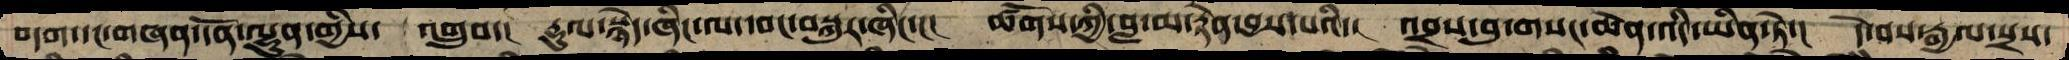བདག་དང་གཞན་དོན་ལྷུན་གྱིས་  འགྲུབ་།  རྡུལ་སྙེད་ཞིང་ལ་དབང་བསྐུར་ཞིང་།།།  ཚོགས་ཀྱི་བླ་མ་རྟེན་བྱས་པའི་།  འབྲས་བུ་གསང་ཆེན་འདི་ཡིན་ཏེ་།  དེ་བས་རྒྱལ་སྲས་
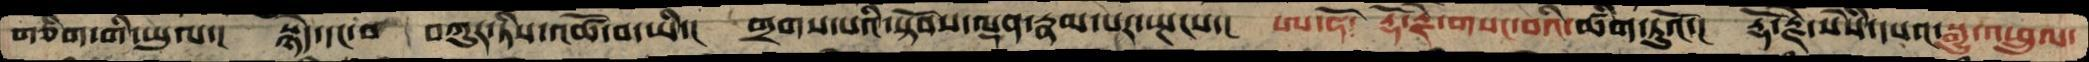གཅིག་གི་ཡུལ་། སྙེད་དང་ བཀུར་ཏིས་འཚོ་བ་ཡི་། གྲགས་པའི་སྟོབས་ལྡན་རྣམ་པར་སྤངས་། ཨ་ཧོ་  རྡོ་རྗེ་གསང་བའི་ཚིག་ཏུའོ་། རྡོ་རྗེ་སེཾས་དཔའ་སྒྱུ་འཕྲུལ་
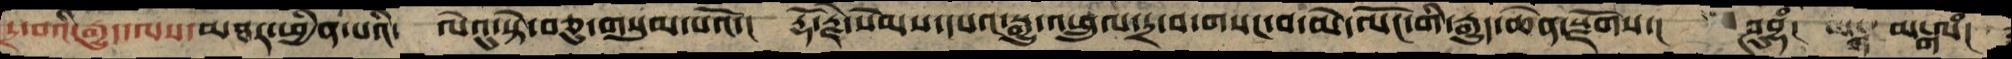དྲ་བའི་རྒྱུད་ལས་མཐར་ཕྱིན་པའི་ ལེའུ་སྟེ་བཅུ་གསུམ་པའོ་། རྡོ་རྗེ་སེམས་དཔའ་སྒྱུ་འཕྲུལ་དྲ་བ་གསང་བ་མེ་ལོང་གི་རྒྱུད་ཆེན་སྫོགས་། ཤུབྷཾ། མངྒལཾ།
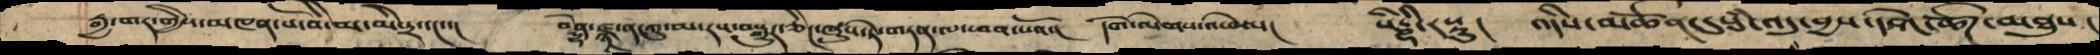རྒྱ་གར་གྱི་མཁན་པོ་བི་མ་མི་ཏྲ་དང་་། བནྡྷེ་ཛྙ་ན་ཀུ་མ་རས་བསྒྱུར་ཅིང་ཞུས་ཏེ་གཏན་ལ་ཕབ་པའོ་། དགེ་ལེགགས་འཕེལ་། སིདྡྷི་རསྟུ། འདིས་མཚོན་དུསུཾ་འདུ་བྱས་དགེ་ཚོཌ་མཐུས།
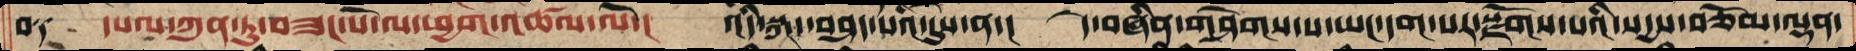བ༑   དཔལ་ཀུན་ཏུ་བཟང་པོ་ལ་ཕྱག་འཚལ་ལོ་།  འདི་སྐད་བཤད་པའི་དུས་ན་།   དེ་བཞིན་གཤེགས་པ་ཡང་དག་པར་སྫོགས་པའི་སདྱས་བཅོམ་ལྡན་
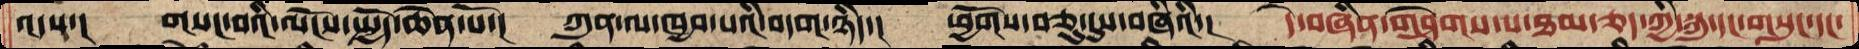འདས་།  གསང་བའི་ལོངས་སྤྱོད་ཆེན་པོ་།   ཀུན་ལ་ཁྱབ་པའི་བདག་ཉིད་།  ཕྱོགས་བཅུ་དུས་བཞིའི་།  དེ་བཞིན་གཤེགས་པ་ཐམས་ཅད་ཀྱྱི་སྐུ་དང་གསུང་་དང་
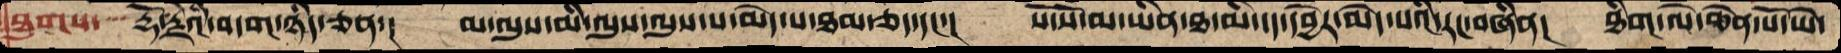ཐུགས་་་་རྡོ་རྗེའི་བདག་ཉིད་ཅན་།   མ་ལུས་མི་ལུས་ལུས་པ་མེད་པ་ཐམ་ཅད་དང་།  སོ་སོ་མ་ཡིན་ཐ་མི་དད་དབྱེར་མེད་པའི་རང་བཞིན།  ཐིག་ལེ་ཆེན་པོ་ཡེ་
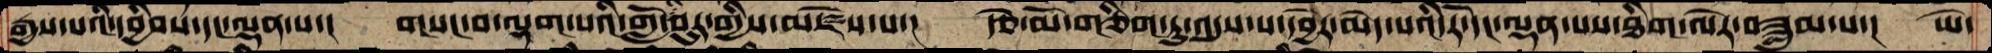རྒྱས་པའི་དབྱིབས་དང་ལྡན་པ་།  གསང་བ་ལྷག་པའི་གློ་བུར་གྱིས་མཛེས་པ་།  རྩེ་མོ་གཅིག་ཏུ་འདུས་པ་དབྱེར་མེད་པའི་རོ་དང་ལྡན་པས་ཐིག་ལེར་བཟླུམ་པ་།  ཡེ་
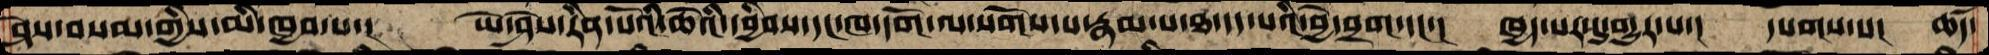ཤེས་བསམ་གྱིས་མི་ཁྱབ་པ་།  ཡེ་ཤེས་རིན་པོའི་ཆེའི་དབྱིབས་དང་ཁ་དོག་ལ་སོགས་པ་རྣམ་པ་ཐ་དད་པའི་བྱེ་བྲག་དང་།  ཁྱད་པར་དུ་གྱུར་པ་།   དཔགས་པ།  ཚད་
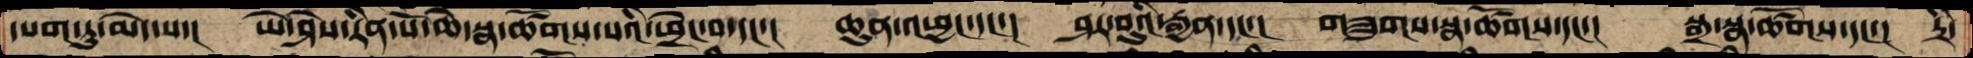དཔག་ཏུ་་མེད་པ་།  ཡེ་ཤེས་རིན་པོ་ཆེ་སྣ་ཚོགས་པའི་ཕྲེང་བ་དང་།  ཆུན་འཕྱང་དང་།  ཤར་བུའི་རྒྱན་དང་།  གཟུགས་སྣ་ཚོགས་དང་།  སྒྲ་སྣ་ཚོགས་དང་། དྲི་
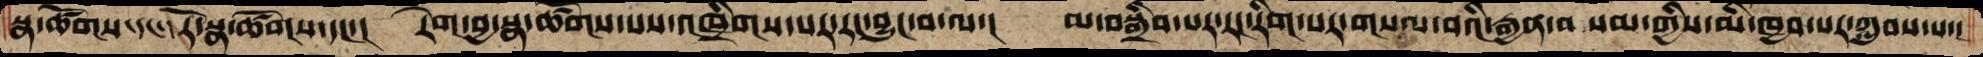སྣ་ཚོགས་དང་རོ་སྣ་ཚོགས་དང་།  རེག་བྱ་སྣ་ཚོགས་པས་འཁྲིགས་པར་རང་བྱུང་བ་ལ་།  མ་བསྒྲིབ་པར་རང་རིག་པར་གསལ་བའི་རྒྱན་བསམ་གྱིས་མི་ཁྱབ་པར་ཀླུབས་པ་།
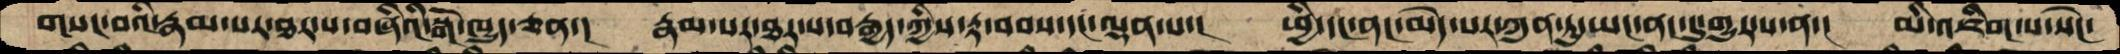གསང་བའི་རྣམ་པར་ཐར་པ་བཞིའི་སྒོ་ཁྱུད་ཅན་།  རྣམ་པར་ཐར་པ་བརྒྱད་ཀྱིས་རྟ་བབས་དང་ལྡན་པ་།  ཕྱི་དང་ནང་མེད་པར་ཀུན་ཏུ་ཡང་ནང་དུ་གྱུར་པ་ན་།  མི་འཇིག་པ་སེང་
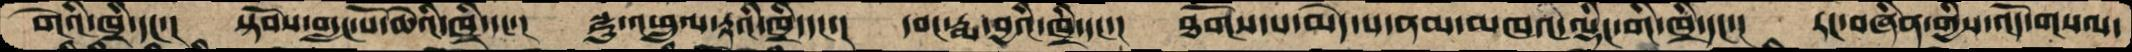གེའི་ཁྲི་དང་།  སྟོབས་གླང་པོ་ཆེའི་ཁྲི་དང་།  སྫུ་འཕྲུལ་རྟའི་ཁྲི་དང་།  དབང་རྨ་བྱའི་ཁྲི་དང་།  ཐོགས་པ་མེད་པ་ནམ་མཁའ་ལྡིང་གི་ཁྲི་དང་།  རང་བཞིན་གྱིས་འོད་གསལ་
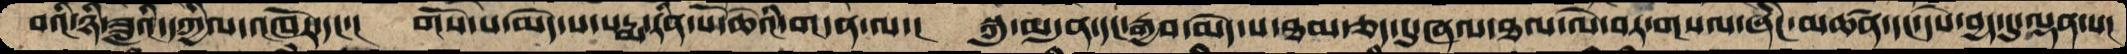བའི་ཉི་ཟླའི་དཀྱིལ་འཁོར་དང་།  གོས་པ་མེད་པ་པདྨ་རིན་པོ་ཆེའི་གདན་ལ་།  སྐུ་མདུན་དང་རྒྱབ་མེད་པ་ཐམ་ཅད་དུ་ཞལ་ཐལ་ལེ་བར་གསལ་ཞིང་མཚན་དང་དཔེ་བྱད་དུ་ལྡན་པ།
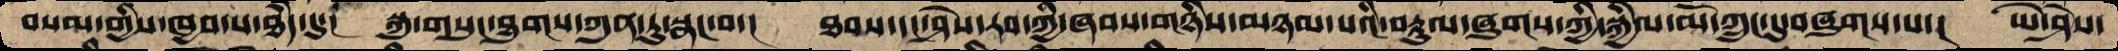བསམ་གྱིས་ཁྱབ་པ་ཐཾད་དུ་།  སྐུ་གསུང་ཐུགས་ཀུན་ཏུ་སྣང་བ་།  ཐབས་དང་ཤེས་རབ་ཀྱི་ཞབས་གཉིས་མཉམ་པའི་བརྟུལ་ཞུགས་ཀྱི་སྐྱིལ་མོ་ཀྲུང་དུ་བཞུགས་པ་།  ཡེ་ཤེས་
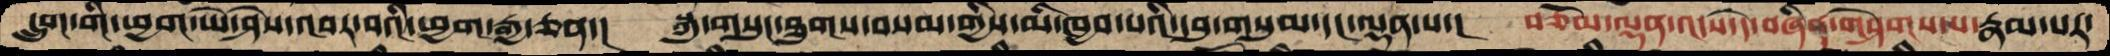དྲུག་གི་ཕྱག་ཡེ་ཤེས་འབར་བའི་ཕྱག་རྒྱ་ཅན་།  སྐུ་གསུང་ཐུགས་བསམ་གྱིས་མི་ཁྱབ་པའི་དབུ་གསུམ་དང་ལྡན་པ་།  བཅོམ་ལྡན་འདས་དེ་བཞིན་གཤེགས་པ་རྣམ་པར་
